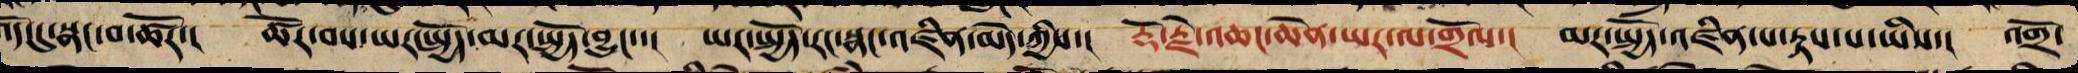འོད་དུ་སྣང་བ་ཚོར་། ཚོར་བས་ཡར་སྤྱོད་མར་སྤྱོད་བྱུང་་། ཡར་སྤྱོད་རང་སྣང་འཛིན་མེད་ཀྱིས་། རྡོ་རྗེ་འཆང་ཆེན་ཡར་ལ་གྲོལ་། མར་སྤྱོད་འཛིན་པ་རྟས་པ་ཡིས་། འགྲོ་
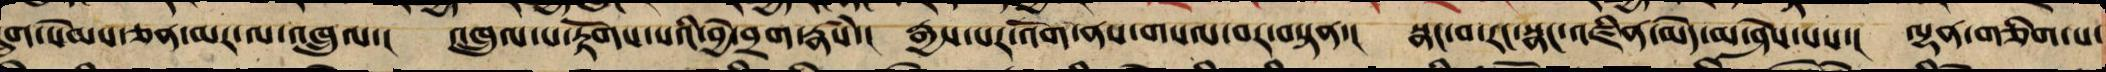དྲུག་སེམས་ཅན་མར་ལ་འཁྲུལ་། འཁྲུལ་པ་རྟོགས་པའི་བྱེ་བྲག་རྣཾས་། རྒྱས་པར་འོག་ནས་གསལ་བར་བསྟན་། སྣང་བ་རང་སྣང་འཛིན་མེད་མ་ཤེས་པས་། ལྷན་ཅིག་པ་
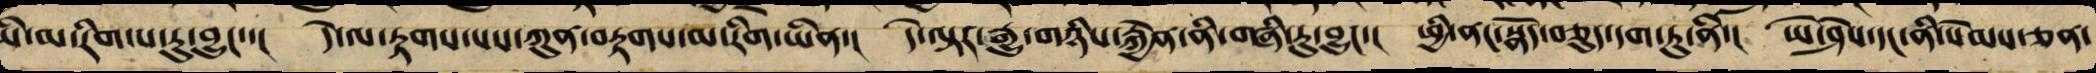ཡི་མ་རིག་པ་རུ་བྱུང་་། དེ་ལ་རྟགས་པས་ཀུན་བརྟགས་མ་རིག་ཡིན་། དེ་ལྟར་རྒྱུ་གཉིས་རྐྱེན་ནི་བཞི་རུ་བྱུང་། ཕྱི་ནང་སྣོད་བཅུད་དག་ཏུ་ནི་། ཡེ་ཤེས་དང་ནི་སེམས་ཅན་
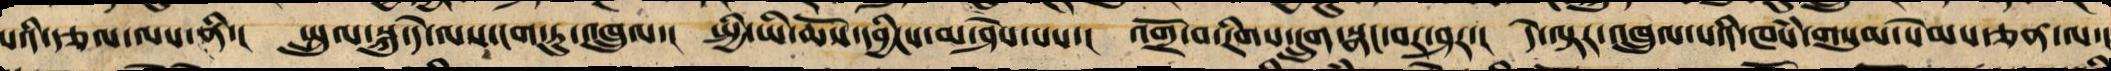པའི་རྩལ་ལས་ནི་། སྤྲུལ་སྐུ་དེ་ལས་ངག་ཏུ་འཁྲུལ་། སྤྱི་ཡི་ཆོས་དབྱིངས་མ་ཤེས་པས་། འགྲོ་བ་རིགས་དྲུག་སྣང་བར་ཤར་། དེ་ལྟར་འཁྲུལ་པས་ཁཾས་གསུམ་སེམས་ཅན་ལ་།
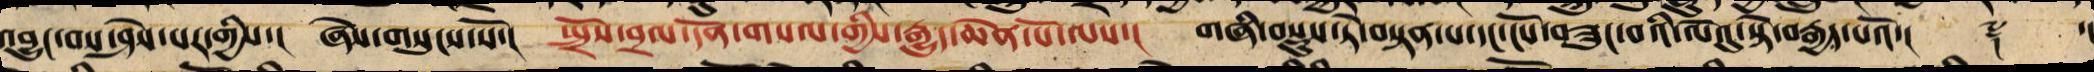འབྱུང་བས་ཤེས་པར་གྱིས་། ཞེས་གསུངས་སོ་། སྤྲོས་བྲལ་དོན་གསལ་གྱིས་རྒྱུད་ཆེན་པོ་ལས་། གཞི་བསྡུས་ཏེ་བསྟན་པ་དང་ངོས་བཟུང་བའི་ལེའུ་སྟེ་བརྒྱད་པའོ་།། ༈ ་།
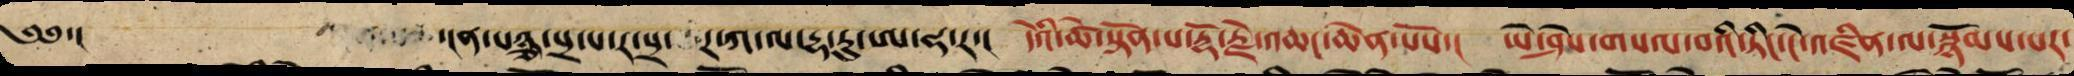༄༅་། །ན་པཉྩ་པྲ་པ་རཱ་པྲ་ར་ཀ་ལ་དྷ་ཏུ་ཨ་ཧ་ར་། དེའི་ཚེ་སྟོན་པ་རྡོ་རྗེ་འཆང་ཆེན་པོས་། ཡེ་ཤེས་གསལ་བའི་ཏིང་ངེ་འཛིན་ལ་སྙོམས་པར་
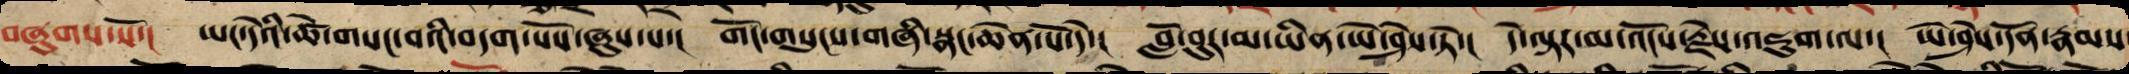བཞུགས་སོ་། ཡང་དེའི་ཚེ་གསང་བའི་བདག་པོས་ཞུས་པ་། གོང་གསུངས་གཞི་སྣང་ཆེན་པོ་དེ་། གློ་བུར་མ་ཡིན་ཡེ་ཤེས་ཏེ་། དེ་ལྟར་མ་འོངས་རྗེས་འཇུག་ལ་། ཡེ་ཤེས་དོན་རྣམས
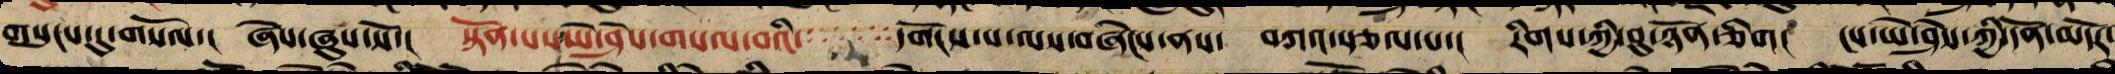གསུངས་དུ་གསོལ་། ཞེས་ཞུས་སོ་། སྟོན་པ་ཡེ་ཤེས་གསལ་བའི་་་་་་་་དགོངས་པ་ལས་བཞེངས་ནས་ བཀའ་སྩལ་པ་། རིགས་ཀྱི་བུ་ཉོན་ཅིག། །ས་ཡེ་ཤེས་ཀྱི་དོན་མདོར་
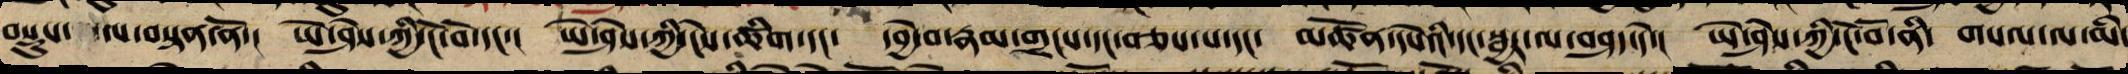བསྡུས་ལ་བསྟན་ནོ་། ཡེ་ཤེས་ཀྱི་ངོ་བོ་དང་། ཡེ་ཤེས་ཀྱི་ངེས་ཚིག་དང་ དབྱེ་བ་རྣམ་གྲངས་དང་བཅས་པ་དང་ མཚོན་དཔེའི་དང་སྦྱར་ལ་བཤད་དེ་། ཡེ་ཤེས་ཀྱི་ངོ་བོ་ནི་ གསལ་ལ་མི་
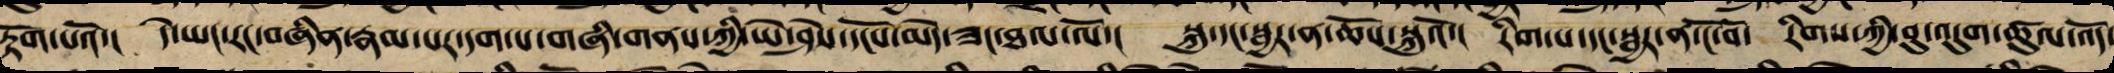རྟོག་པའོ་། དེ་ཡང་རང་བཞིན་རྣམ་པར་དག་པ་གཞི་གནས་ཀྱི་ཡེ་ཤེས་དངོས་མེད་ཟང་ཐལ་ལོ་། སྐུ་དང་སྦྱར་ན་ཆོས་སྐུའོ་། རིག་པ་དང་སྦྱར་ན་ངོ་བོ་ རིགས་ཀྱི་བུ་འདུག་ཚུལ་འོད་
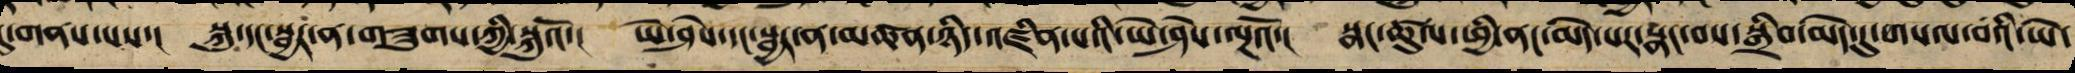དུ་གནས་པས་། སྐུ་དང་སྦྱར་ན་གཟུགས་ཀྱི་སྐུའོ་། ཡེ་ཤེས་དང་སྦྱར་ན་མཚན་ཉིད་འཛིན་པའི་ཡེ་ཤེས་ལྔའོ་། སྣང་ཚུལ་ཕྱི་ནང་མེད་པར་སྣང་བས་སྒྲིབ་མེད་དུ་གསལ་བའི་ཡེ་
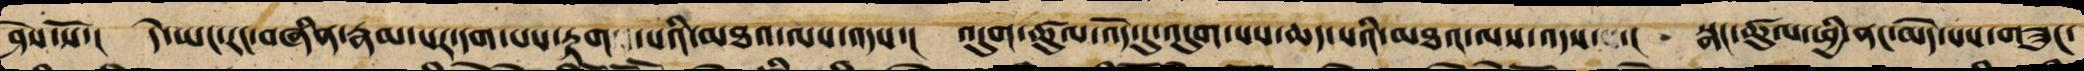ཤེས་སོ་། དེ་ཡང་རང་བཞིན་རྣམ་པར་དག་པས་རྟག་པའི་མཐའ་ལས་འདས་། འདུག་ཚུལ་འོད་དུ་འདུག་པས་ཆད་པའི་མཐའ་ལས་འདས་། སྣང་ཚུལ་ཕྱི་ནང་མེད་པས་གཟུང་
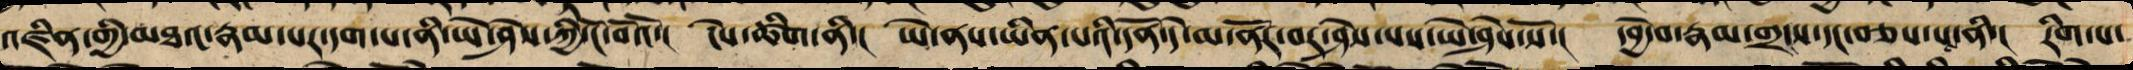འཛིན་གྱི་མཐའ་རྣམ་པར་དག་པ་ནི་ཡེ་ཤེས་ཀྱི་ངོ་བོའོ་། ངེས་ཚིག་ནི་། ཡེ་ནས་ཡིན་པའི་དོན་དེ་མ་ནོར་བར་ཤེས་པས་ཡེ་ཤེས་སོ་། དབྱེ་བ་རྣམ་གྲངས་དང་བཅས་པ་ནི་། རིག་པ་
